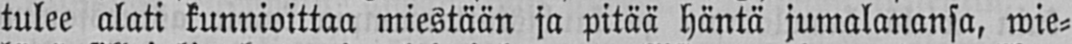tulee alati kunnioittaa miestään ja pitää häntä jumalanansa, wie-
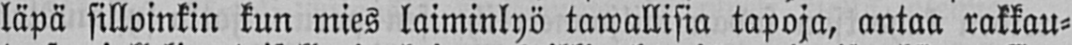läpä silloinkin kun mies laiminlyö tawallisia tapoja, antaa rakkau-
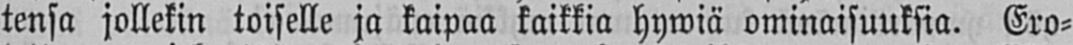tensa jollekin toiselle ja kaipaa kaikkia hywiä ominaisuuksia. Ero-
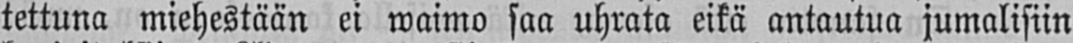tettuna miehestään ei waimo saa uhrata eikä antautua jumalisiin
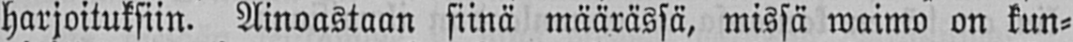harjoituksiin. Ainoastaan siinä määrässä, missä waimo on kun-
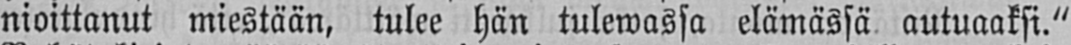nioittanut miestään, tulee hän tulewassa elämässä autuaaksi."
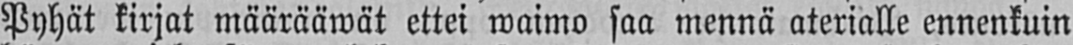Pyhät kirjat määrääwät ettei waimo saa mennä aterialle ennenkuin
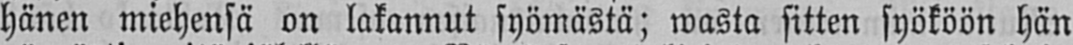hänen miehensä on lakannut syömästä; wasta sitten syököön hän
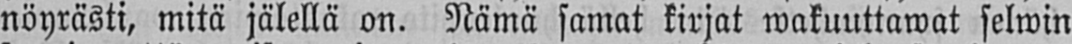nöyrästi, mitä jälellä on. Nämä samat kirjat wakuuttamat selwin
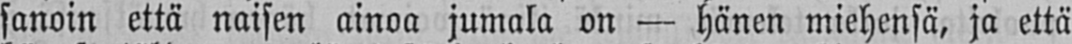sanoin että naisen ainoa jumala on — hänen miehensä, ja että
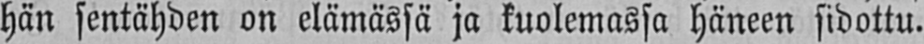hän sentähden on elämässä ja kuolemassa häneen sidottu.
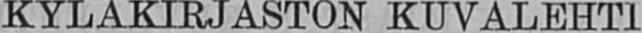KYLÄKIRJASTON KUVALEHTI
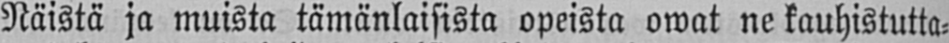Näistä ja muista tämänlaisista opeista owat ne kauhistutta-
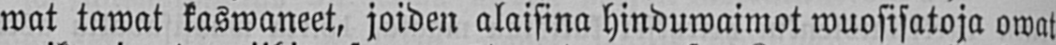wat tawat kaswaneet, joiden alaisina hinduwaimot wuosisatoja owat
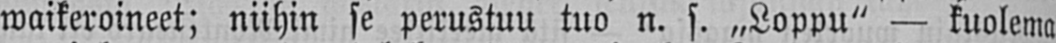waikeroineet; niihin se perustuu tuo n. s. „Loppu" — kuolema
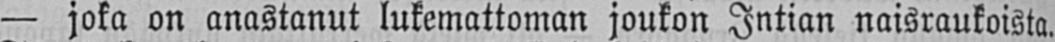— joka on anastanut lukemattoman joukon Intian naisraukoista.
